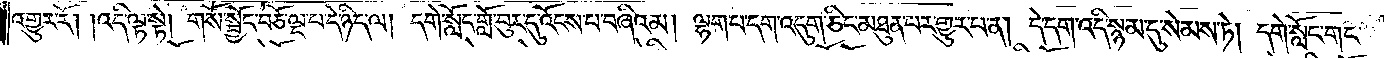འགྱུར་རོ། །འདི་ལྟ་སྟེ། གསོ་སྦྱོང་བཅོ་ལྔ་པ་དེ་ཉིད་ལ། དགེ་སློང་གློ་བུར་དུ་འོངས་པ་བཞིའམ། ལྷག་པ་དག་འདུག་ཅིང་མཐུན་པར་གྱུར་པ་ན། དེ་དག་འདི་སྙམ་དུ་སེམས་ཏེ། དགེ་སློང་གང་
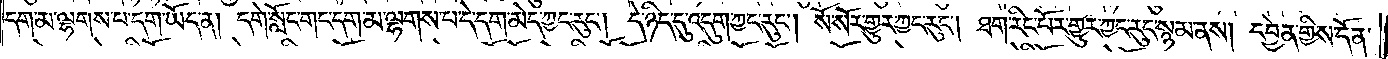དག་མ་ལྷགས་པ་དག་ཡོད་ན། དགེ་སློང་གང་དག་མ་ལྷགས་པ་དེ་དག་མེད་ཀྱང་རུང༌། དེ་ཉིད་དུ་འདུག་ཀྱང་རུང༌། སོ་སོར་གྱུར་ཀྱང་རུང༌། ཐག་རིང་པོར་གྱུར་ཀྱང་རུང་སྙམ་ནས། དབྱེན་གྱིས་དོན་
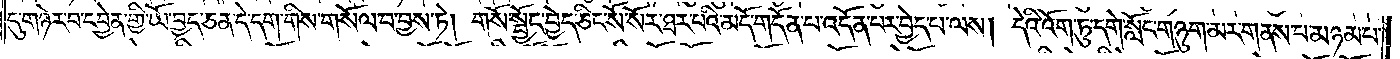དུ་གཉེར་བ་དབྱེན་གྱི་ཡོ་བྱད་ཅན་དེ་དག་གིས་གསོལ་བ་བྱས་ཏེ། གསོ་སྦྱོང་བྱེད་ཅིང་སོ་སོར་ཐར་པའི་མདོ་གདོན་པ་འདོན་པར་བྱེད་པ་ལས། དེའི་འོག་ཏུ་དགེ་སློང་གཉུག་མར་གནས་པ་མཉམ་པ་
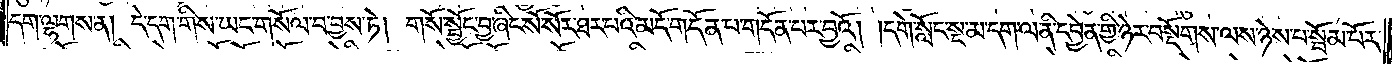དག་ལྷགས་ན། དེ་དག་གིས་ཡང་གསོལ་བ་བྱས་ཏེ། གསོ་སྦྱོང་བྱ་ཞིང་སོ་སོར་ཐར་པའི་མདོ་གདོན་པ་གདོན་པར་བྱའོ། །དགེ་སློང་སྔ་མ་དག་ལ་ནི་དབྱེན་གྱི་ཉེར་བསྡོགས་ལས་ཉེས་པ་སྦོམ་པོར་
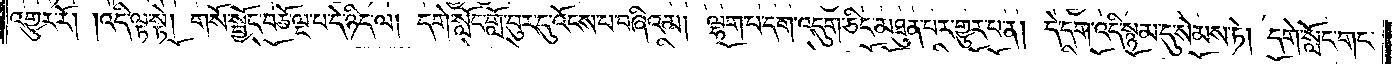འགྱུར་རོ། །འདི་ལྟ་སྟེ། གསོ་སྦྱོང་བཅོ་ལྔ་པ་དེ་ཉིད་ལ། དགེ་སློང་གློ་བུར་དུ་འོངས་པ་བཞིའམ། ལྷག་པ་དག་འདུག་ཅིང་མཐུན་པར་གྱུར་པ་ན། དེ་དག་འདི་སྙམ་དུ་སེམས་ཏེ། དགེ་སློང་གང་
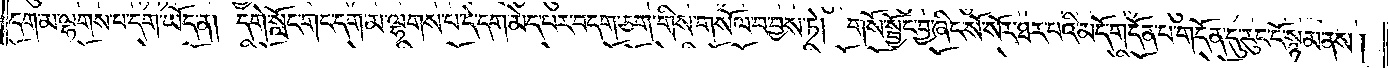དག་མ་ལྷགས་པ་དག་ཡོད་ན། དགེ་སློང་གང་དག་མ་ལྷགས་པ་དེ་དག་མེད་པར་བདག་ཅག་གིས་གསོལ་བ་བྱས་ཏེ། གསོ་སྦྱོང་བྱ་ཞིང་སོ་སོར་ཐར་པའི་མདོ་གདོན་པ་གདོན་དུ་རུང་ངོ་སྙམ་ནས།
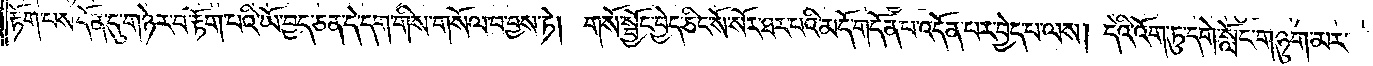རྟོག་པས་དོན་དུ་གཉེར་བ་རྟོག་པའི་ཡོ་བྱད་ཅན་དེ་དག་གིས་གསོལ་བ་བྱས་ཏེ། གསོ་སྦྱོང་བྱེད་ཅིང་སོ་སོར་ཐར་པའི་མདོ་གདོན་པ་འདོན་པར་བྱེད་པ་ལས། དེའི་འོག་ཏུ་དགེ་སློང་གཉུག་མར་
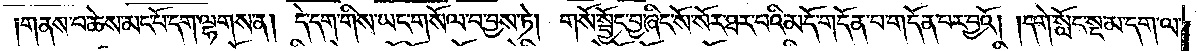གནས་པ་ཆེས་མང་པོ་དག་ལྷགས་ན། དེ་དག་གིས་ཡང་གསོལ་བ་བྱས་ཏེ། གསོ་སྦྱོང་བྱ་ཞིང་སོ་སོར་ཐར་པའི་མདོ་གདོན་པ་གདོན་པར་བྱའོ། །དགེ་སློང་སྔ་མ་དག་ལ་
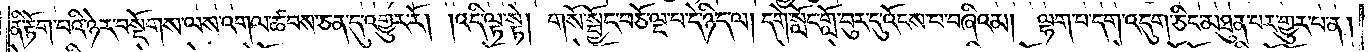ནི་རྟོག་པའི་ཉེར་བསྡོགས་ལས་འགལ་ཚབས་ཅན་དུ་འགྱུར་རོ། །འདི་ལྟ་སྟེ། གསོ་སྦྱོང་བཅོ་ལྔ་པ་དེ་ཉིད་ལ། དགེ་སློང་གློ་བུར་དུ་འོངས་པ་བཞིའམ། ལྷག་པ་དག་འདུག་ཅིང་མཐུན་པར་གྱུར་པ་ན།
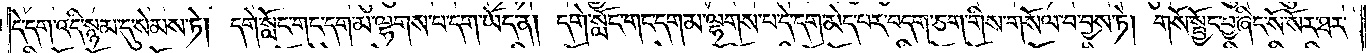དེ་དག་འདི་སྙམ་དུ་སེམས་ཏེ། དགེ་སློང་གང་དག་མ་ལྷགས་པ་དག་ཡོད་ན། དགེ་སློང་གང་དག་མ་ལྷགས་པ་དེ་དག་མེད་པར་བདག་ཅག་གིས་གསོལ་བ་བྱས་ཏེ། གསོ་སྦྱོང་བྱ་ཞིང་སོ་སོར་ཐར་
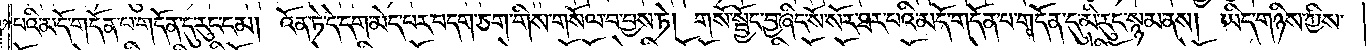པའི་མདོ་གདོན་པ་གདོན་དུ་རུང་ངམ། འོན་ཏེ་དེ་དག་མེད་པར་བདག་ཅག་གིས་གསོལ་བ་བྱས་ཏེ། གསོ་སྦྱོང་བྱ་ཞིང་སོ་སོར་ཐར་པའི་མདོ་གདོན་པ་གདོན་དུ་མི་རུང་སྙམ་ནས། ཡིད་གཉིས་ཀྱིས་
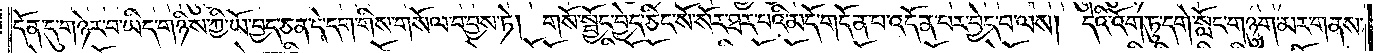དོན་དུ་གཉེར་བ་ཡིད་གཉིས་ཀྱི་ཡོ་བྱད་ཅན་དེ་དག་གིས་གསོལ་བ་བྱས་ཏེ། གསོ་སྦྱོང་བྱེད་ཅིང་སོ་སོར་ཐར་པའི་མདོ་གདོན་པ་འདོན་པར་བྱེད་པ་ལས། དེའི་འོག་ཏུ་དགེ་སློང་གཉུག་མར་གནས་
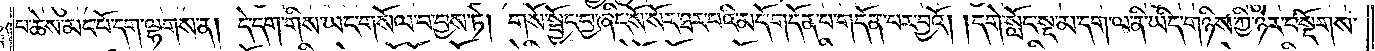པ་ཆེས་མང་པོ་དག་ལྷགས་ན། དེ་དག་གིས་ཡང་གསོལ་བ་བྱས་ཏེ། གསོ་སྦྱོང་བྱ་ཞིང་སོ་སོར་ཐར་པའི་མདོ་གདོན་པ་གདོན་པར་བྱའོ། །དགེ་སློང་སྔ་མ་དག་ལ་ནི་ཡིད་གཉིས་ཀྱི་ཉེར་བསྡོགས་
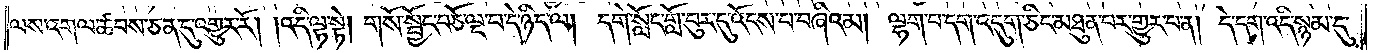ལས་འགལ་ཚབས་ཅན་དུ་འགྱུར་རོ། །འདི་ལྟ་སྟེ། གསོ་སྦྱོང་བཅོ་ལྔ་བ་དེ་ཉིད་ལ། དགེ་སློང་གློ་བུར་དུ་འོངས་པ་བཞིའམ། ལྷག་པ་དག་འདུག་ཅིང་མཐུན་པར་གྱུར་བ་ན། དེ་དག་འདི་སྙམ་དུ་
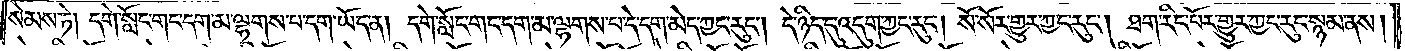སེམས་ཏེ། དགེ་སློང་གང་དག་མ་ལྷགས་པ་དག་ཡོད་ན། དགེ་སློང་གང་དག་མ་ལྷགས་པ་དེ་དག་མེད་ཀྱང་རུང༌། དེ་ཉིད་དུ་འདུག་ཀྱང་རུང༌། སོ་སོར་གྱུར་ཀྱང་རུང༌། ཐག་རིང་པོར་གྱུར་ཀྱང་རུང་སྙམ་ནས།
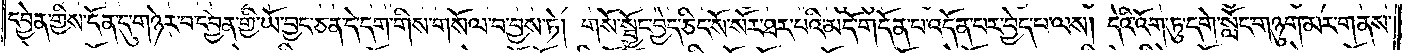དབྱེན་གྱིས་དོན་དུ་གཉེར་བ་དབྱེན་གྱི་ཡོ་བྱང་ཅན་དེ་དག་གིས་གསོལ་བ་བྱས་ཏེ། གསོ་སྦྱོང་བྱེད་ཅིང་སོ་སོར་ཐར་པའི་མདོ་གདོན་པ་འདོན་པར་བྱེད་པ་ལས། དེའི་འོག་ཏུ་དགེ་སློང་གཉུག་མར་གནས་
